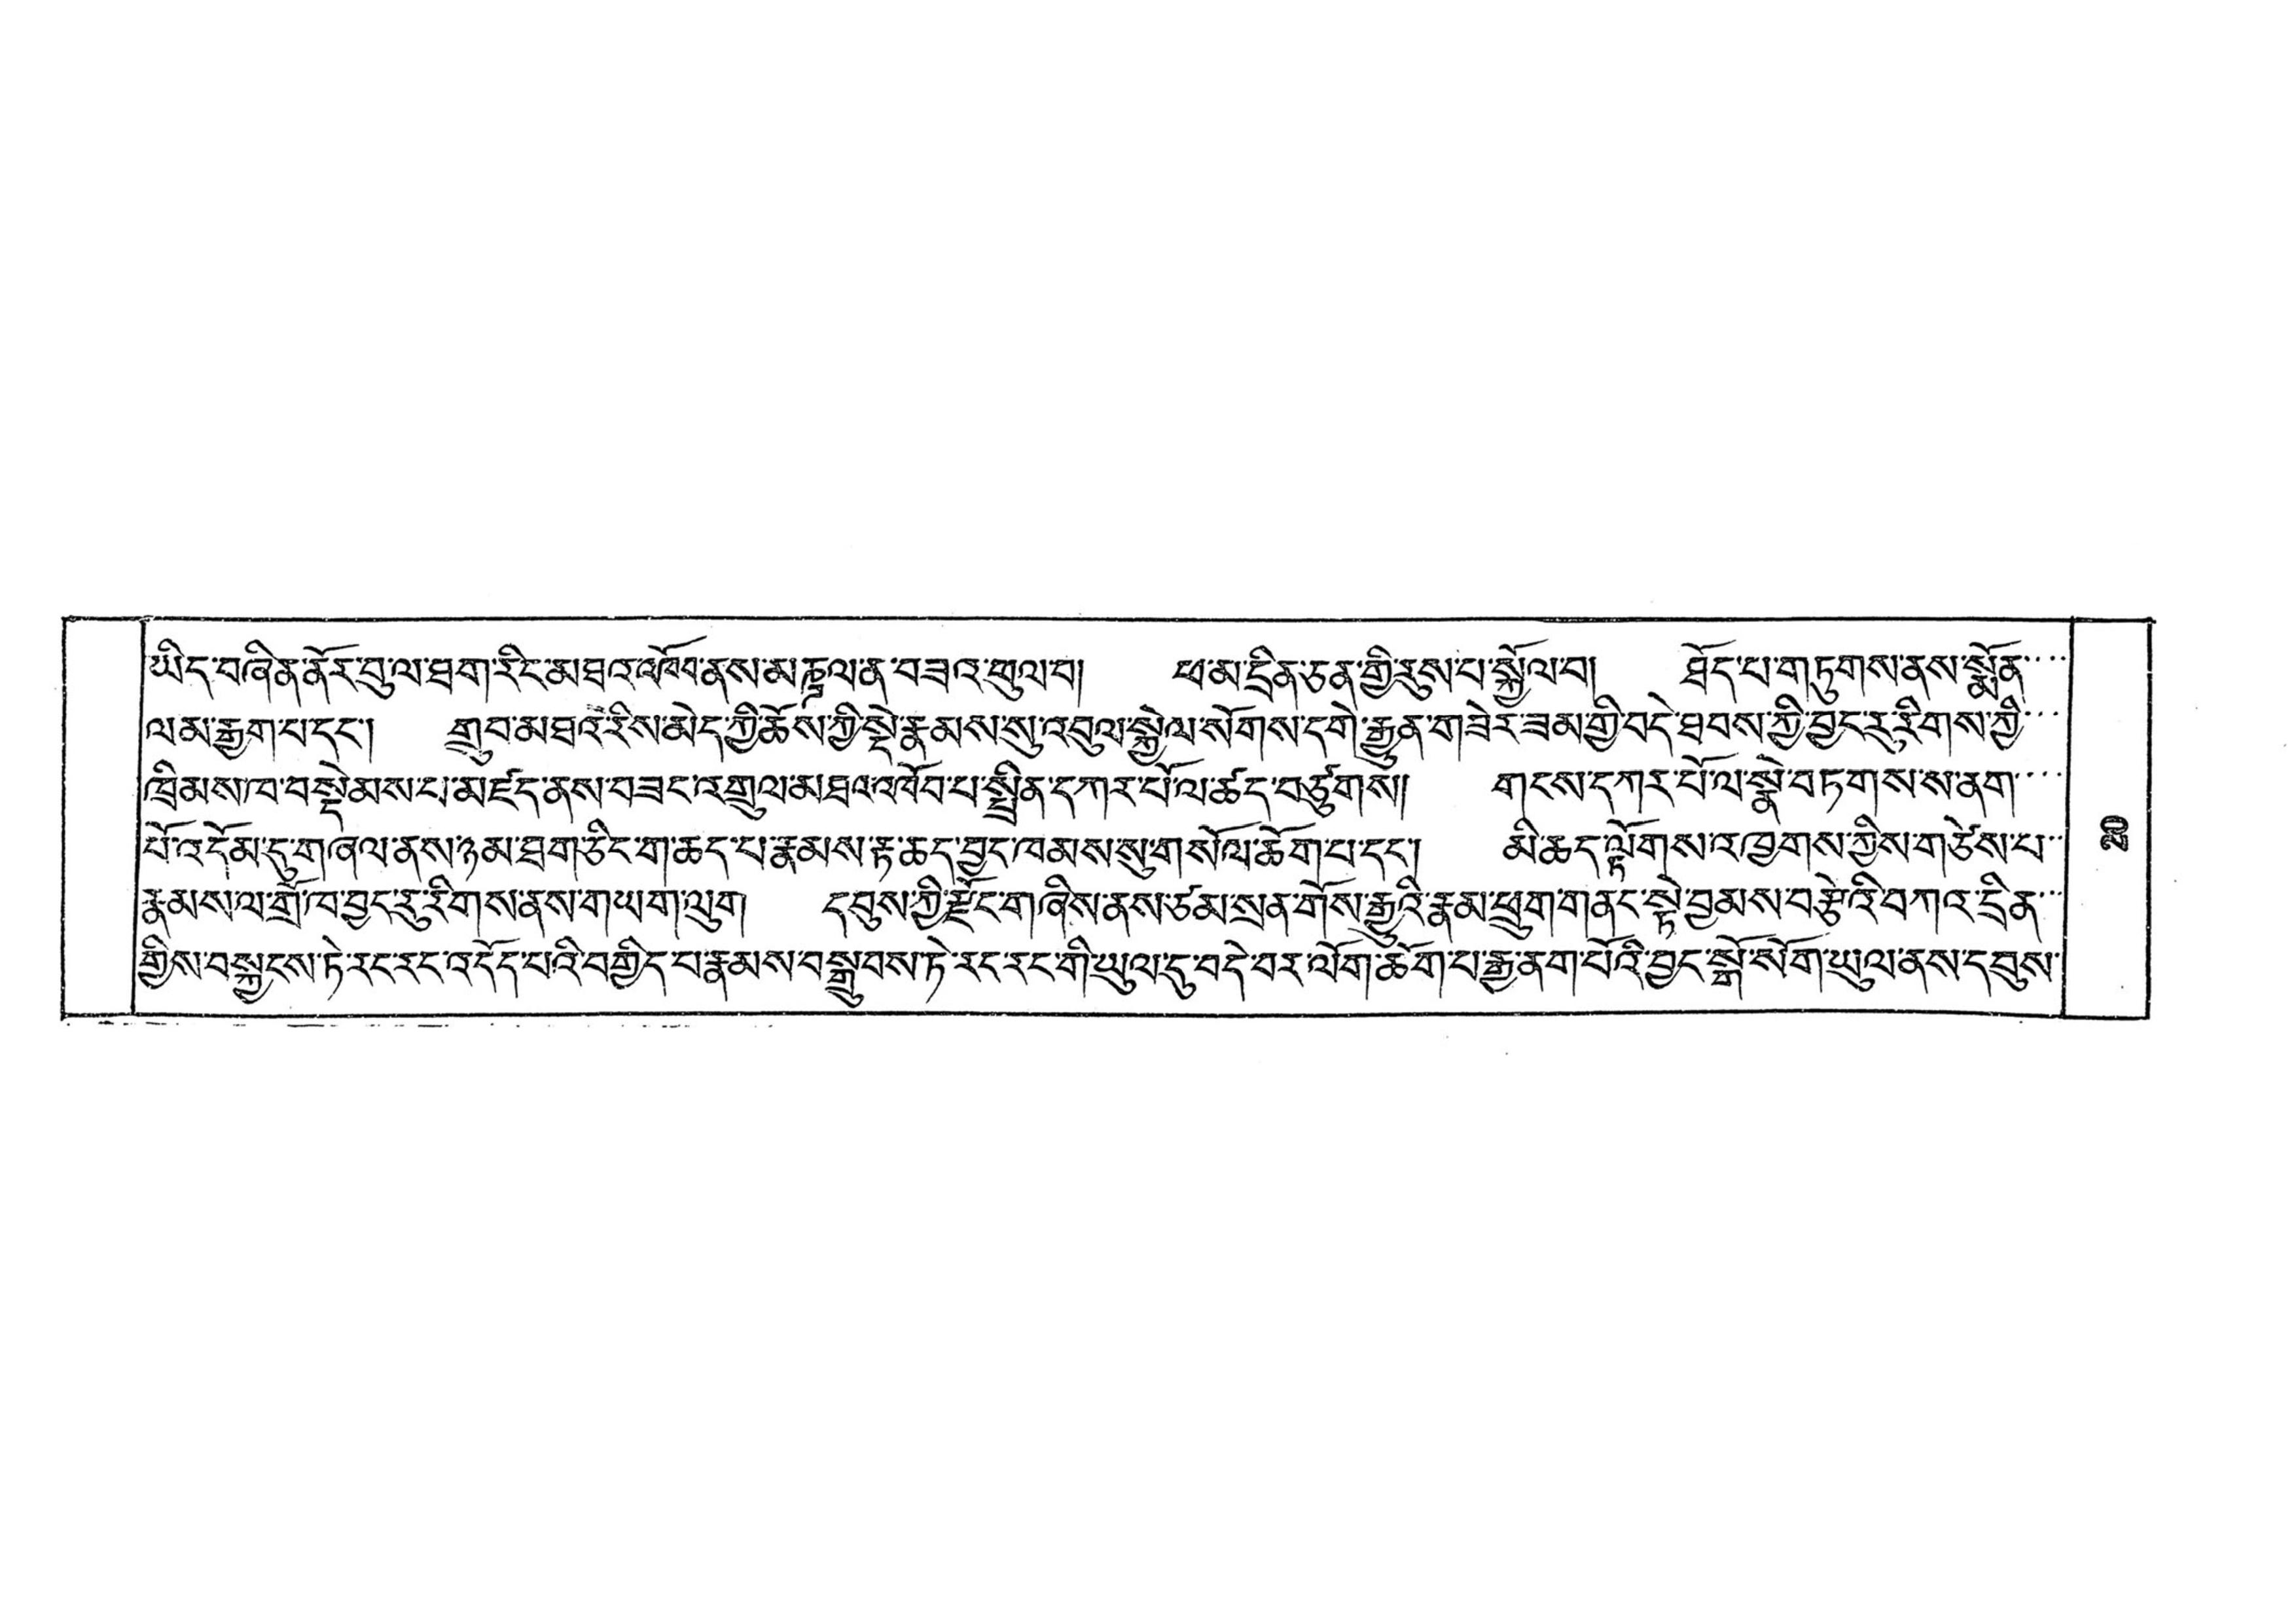ཡིད་བཞིན་ནོར་བུ་ལ་ཐག་རིང་མཐའ་འཁོབ་ནས་མཎྜལ་ན་བཟའ་ཕུལ་བ། ཕ་མ་དྲིན་ཅན་གྱི་རུས་པ་སྐྱོལ་བ། ཐོད་པ་གཏུགས་ནས་སྨོན་་་་
ལམ་རྒྱག་པ་དང་། གྲུབ་མཐའ་རིས་མེད་ཀྱི་ཆོས་ཀྱི་སྡེ་རྣམས་སུ་འབུལ་སྐྱེལ་སོགས་དགེ་རྒྱུན་གཟེར་ཟམ་གྱི་བདེ་ཐབས་ཀྱི་བྱང་རུ་རིགས་ཀྱི་་་
ཁྲིམས་ཁ་བསྡེམས་པ་མཛད་ནས་བཟང་འགྲུལ་མཐའ་འཁོབ་པ་སྤྲིན་དཀར་པོ་ལ་ཚད་བཙུགས། གངས་དཀར་པོ་ལ་སྣེ་བཏགས་ས་ནག་་་་
པོ་འདོམ་དུ་གཞལ་ནས་ཉམ་ཐག་ཅིང་ག་ཆད་པ་རྣམས་རྟ་ཆད་བྱུང་ཁམས་སུ་གསོལ་ཆོག་པ་དང་། མི་ཆད་ལྟོགས་འཁྱགས་ཀྱིས་གཙེས་པ་་
རྣམས་ལ་གྲོ་ཁ་བྱང་རུ་རིགས་ནས་གཡག་ལུག དབུས་ཀྱི་རྫོང་གཞིས་ནས་ཙམ་སྲན་གོས་རྒྱའི་རྣམ་ཕྲུག་གནང་སྟེ་བྱམས་བརྩེའི་བཀའ་དྲིན་་་
གྱིས་བསྐྱངས་ཏེ་རང་རང་འདོད་པའི་བགྱིད་བ་རྣམས་བསྒྲུབས་ཏེ་རང་རང་གི་ཡུལ་དུ་བདེ་བར་ལོགཆོག་པ་རྒྱ་ནག་པོའི་བྱང་སྒོ་སོག་ཡུལ་ནས་དབུས་
